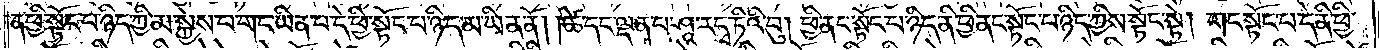ན་ཕྱི་སྟོང་པ་ཉིད་ཀྱི་མ་སྐྱེས་པ་གང་ཡིན་པ་དེ་ཕྱི་སྟོང་པ་ཉིད་མ་ཡིན་ནོ། །ཚེ་དང་ལྡན་པ་ཤཱ་ར་དྭ་ཏིའི་བུ། ཕྱི་ནང་སྟོང་པ་ཉིད་ནི་ཕྱི་ནང་སྟོང་པ་ཉིད་ཀྱིས་སྟོང་སྟེ། གང་སྟོང་པ་དེ་ནི་ཕྱི་
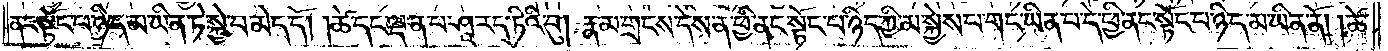ནང་སྟོང་པ་ཉིད་མ་ཡིན་ཏེ་སྐྱེ་བ་མེད་དོ། །ཚེ་དང་ལྡན་པ་ཤཱ་ར་དྭ་ཏིའི་བུ། རྣམ་གྲངས་དེས་ན་ཕྱི་ནང་སྟོང་པ་ཉིད་ཀྱི་མ་སྐྱེས་པ་གང་ཡིན་པ་དེ་ཕྱི་ནང་སྟོང་པ་ཉིད་མ་ཡིན་ནོ། །ཚེ་
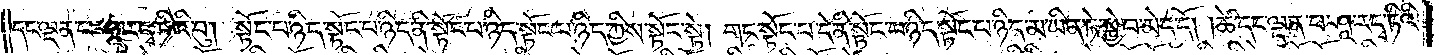དང་ལྡན་པ་ཤཱ་ར་དྭ་ཏིའི་བུ། སྟོང་པ་ཉིད་སྟོང་པ་ཉིད་ནི་སྟོང་པ་ཉིད་སྟོང་པ་ཉིད་ཀྱིས་སྟོང་སྟེ། གང་སྟོང་པ་དེ་ནི་སྟོང་པ་ཉིད་སྟོང་པ་ཉིད་མ་ཡིན་ཏེ་སྐྱེ་བ་མེད་དོ། །ཚེ་དང་ལྡན་པ་ཤཱ་ར་དྭ་ཏིའི་
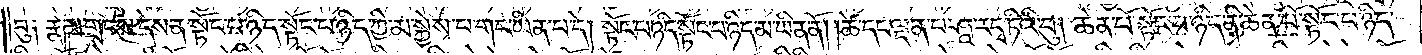བུ༏ རྣམ་གྲངས་དེས་ན་སྟོང་པ་ཉིད་སྟོང་པ་ཉིད་ཀྱི་མ་སྐྱེས་པ་གང་ཡིན་པ་དེ། སྟོང་པ་ཉིད་སྟོང་པ་ཉིད་མ་ཡིན་ནོ། །ཚེ་དང་ལྡན་པ་ཤཱ་ར་དྭ་ཏིའི་བུ། ཆེན་པོ་སྟོང་པ་ཉིད་ནི་ཆེན་པོ་སྟོང་པ་ཉིད་
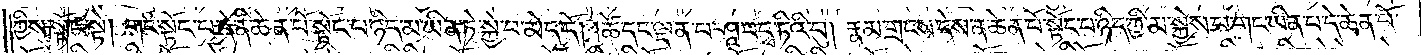ཀྱིས་སྟོང་སྟེ། གང་སྟོང་པ་དེ་ནི་ཆེན་པོ་སྟོང་པ་ཉིད་མ་ཡིན་ཏེ་སྐྱེ་བ་མེད་དོ། །ཚེ་དང་ལྡན་པ་ཤཱ་ར་དྭ་ཏིའི་བུ། རྣམ་གྲངས་དེས་ན་ཆེན་པོ་སྟོང་པ་ཉིད་ཀྱི་མ་སྐྱེས་པ་གང་ཡིན་པ་དེ་ཆེན་པོ་
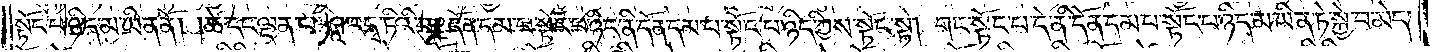སྟོང་པ་ཉིད་མ་ཡིན་ནོ། །ཚེ་དང་ལྡན་པ་ཤཱ་ར་དྭ་ཏིའི་བུ། དོན་དམ་པ་སྟོང་པ་ཉིད་ནི་དོན་དམ་པ་སྟོང་པ་ཉིད་ཀྱིས་སྟོང་སྟེ། གང་སྟོང་པ་དེ་ནི་དོན་དམ་པ་སྟོང་པ་ཉིད་མ་ཡིན་ཏེ་སྐྱེ་བ་མེད་
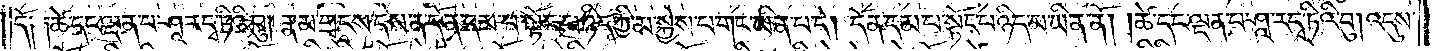དོ༏ ༏ཚེ་དང་ལྡན་པ་ཤཱ་ར་དྭ་ཏིའི་བུ། རྣམ་གྲངས་དེས་ན་དོན་དམ་པ་སྟོང་པ་ཉིད་ཀྱི་མ་སྐྱེས་པ་གང་ཡིན་པ་དེ། དོན་དམ་པ་སྟོང་པ་ཉིད་མ་ཡིན་ནོ། །ཚེ་དང་ལྡན་པ་ཤཱ་ར་དྭ་ཏིའི་བུ། འདུས་
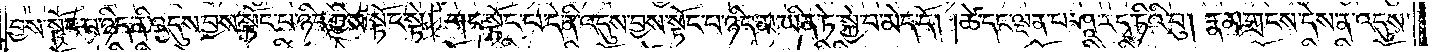བྱས་སྟོང་པ་ཉིད་ནི་འདུས་བྱས་སྟོང་པ་ཉིད་ཀྱིས་སྟོང་སྟེ། གང་སྟོང་པ་དེ་ནི་འདུས་བྱས་སྟོང་པ་ཉིད་མ་ཡིན་ཏེ་སྐྱེ་བ་མེད་དོ། །ཚེ་དང་ལྡན་པ་ཤཱ་ར་དྭ་ཏིའི་བུ། རྣམ་གྲངས་དེས་ན་འདུས་
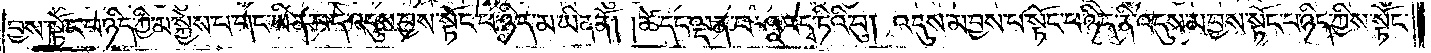བྱས་སྟོང་པ་ཉིད་ཀྱི་མ་སྐྱེས་པ་གང་ཡིན་པ་དེ་འདུས་བྱས་སྟོང་པ་ཉིད་མ་ཡིན་ནོ། །ཚེ་དང་ལྡན་པ་ཤཱ་ར་དྭ་ཏིའི་བུ། འདུས་མ་བྱས་སྟོང་པ་ཉིད་ནི་འདུས་མ་བྱས་སྟོང་པ་ཉིད་ཀྱིས་སྟོང་
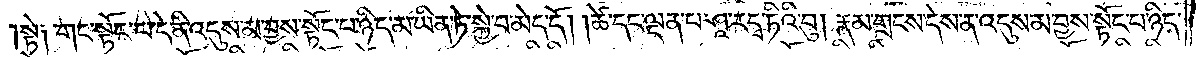སྟེ༏ གང་སྟོང་པ་དེ་ནི་འདུས་མ་བྱས་སྟོང་པ་ཉིད་མ་ཡིན་ཏེ་སྐྱེ་བ་མེད་དོ། །ཚེ་དང་ལྡན་པ་ཤཱ་ར་དྭ་ཏིའི་བུ། རྣམ་གྲངས་དེས་ན་འདུས་མ་བྱས་སྟོང་པ་ཉིད་
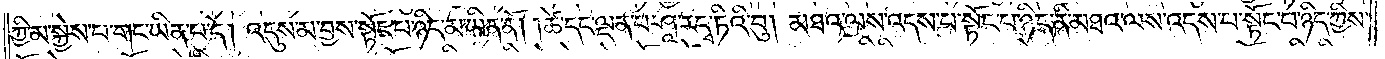ཀྱི་མ་སྐྱེས་པ་གང་ཡིན་པ་དེ། འདུས་མ་བྱས་སྟོང་པ་ཉིད་མ་ཡིན་ནོ། །ཚེ་དང་ལྡན་པ་ཤཱ་ར་དྭ་ཏིའི་བུ། མཐའ་ལས་འདས་པ་སྟོང་པ་ཉིད་ནི་མཐའ་ལས་འདས་པ་སྟོང་པ་ཉིད་ཀྱིས་
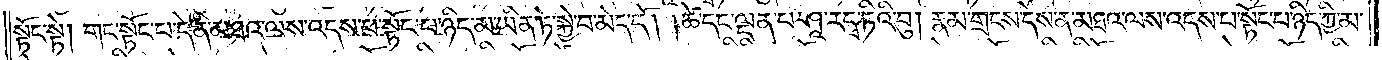སྟོང་སྟེ། གང་སྟོང་པ་དེ་ནི་མཐའ་ལས་འདས་པ་སྟོང་པ་ཉིད་མ་ཡིན་ཏེ་སྐྱེ་བ་མེད་དོ། །ཚེ་དང་ལྡན་པ་ཤཱ་ར་དྭ་ཏིའི་བུ། རྣམ་གྲངས་དེས་ན་མཐའ་ལས་འདས་པ་སྟོང་པ་ཉིད་ཀྱི་མ་
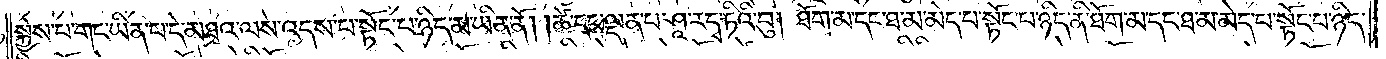སྐྱེས་པ་གང་ཡིན་པ་དེ་མཐའ་ལས་འདས་པ་སྟོང་པ་ཉིད་མ་ཡིན་ནོ། །ཚེ་དང་ལྡན་པ་ཤཱ་ར་དྭ་ཏིའི་བུ། ཐོག་མ་དང་ཐ་མ་མེད་པ་སྟོང་པ་ཉིད་ནི་ཐོག་མ་དང་ཐ་མ་མེད་པ་སྟོང་པ་ཉིད་
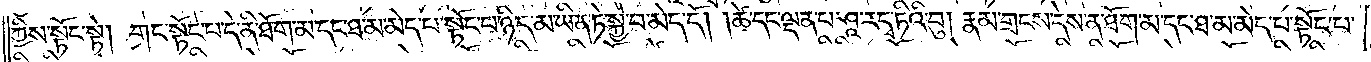ཀྱིས་སྟོང་སྟེ། གང་སྟོང་པ་དེ་ནི་ཐོག་མ་དང་ཐ་མ་མེད་པ་སྟོང་པ་ཉིད་མ་ཡིན་ཏེ་སྐྱེ་བ་མེད་དོ། །ཚེ་དང་ལྡན་པ་ཤཱ་ར་དྭ་ཏིའི་བུ། རྣམ་གྲངས་དེས་ན་ཐོག་མ་དང་ཐ་མ་མེད་པ་སྟོང་པ་
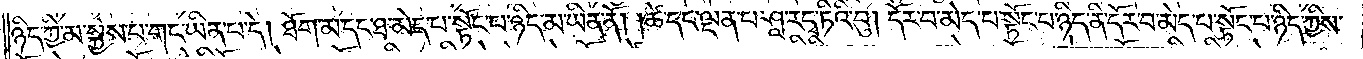ཉིད་ཀྱི་མ་སྐྱེས་པ་གང་ཡིན་པ་དེ། ཐོག་མ་དང་ཐ་མ་མེད་པ་སྟོང་པ་ཉིད་མ་ཡིན་ནོ། །ཚེ་དང་ལྡན་པ་ཤཱ་ར་དྭ་ཏིའི་བུ། དོར་བ་མེད་པ་སྟོང་པ་ཉིད་ནི་དོར་བ་མེད་པ་སྟོང་པ་ཉིད་ཀྱིས་
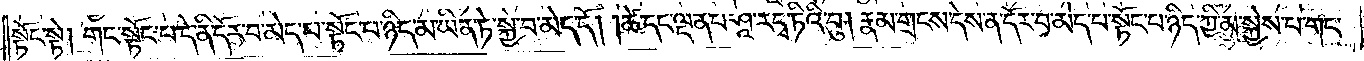སྟོང་སྟེ། གང་སྟོང་པ་དེ་ནི་དོར་བ་མེད་པ་སྟོང་པ་ཉིད་མ་ཡིན་ཏེ་སྐྱེ་བ་མེད་དོ། །ཚེ་དང་ལྡན་པ་ཤཱ་ར་དྭ་ཏིའི་བུ། རྣམ་གྲངས་དེས་ན་དོར་བ་མེད་པ་སྟོང་པ་ཉིད་ཀྱི་མ་སྐྱེས་པ་གང་
